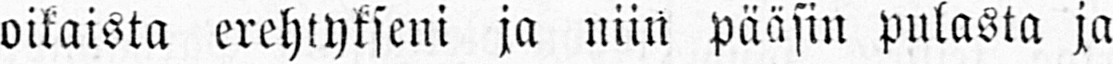oikaista erehtykseni ja niin pääsin pulasta ja
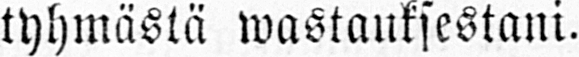tyhmästä wastauksestani.
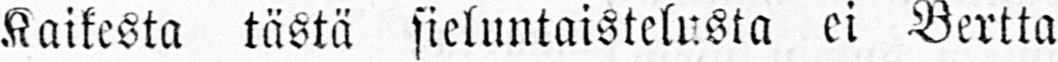Kaikesta tästä sieluntaistelusta ei Bertta
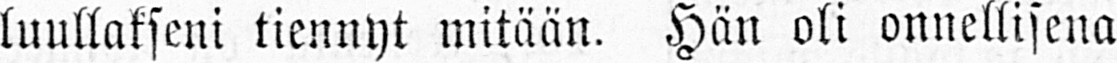luullakseni tiennyt mitään. Hän oli onnellisena
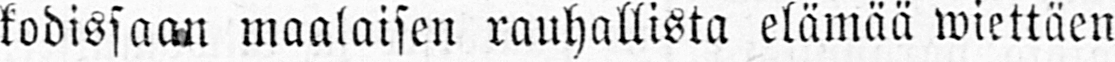kodissaan maalaisen rauhallista elämää wiettäen
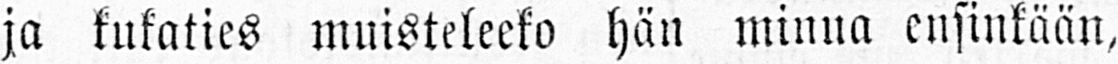ja kukaties muisteleeko hän minua ensinkään,
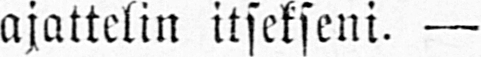ajattelin itsekseni. —
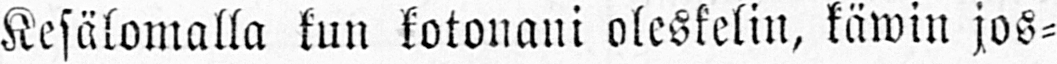Kesälomalla kun kotonani oleskelin, käwin jos-
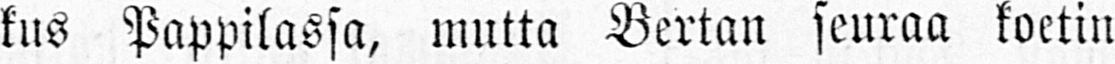kus Pappilassa, mutta Bertan seuraa koetin
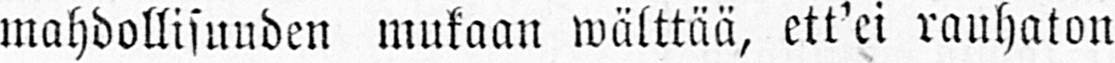mahdollisuuden mukaan wälttää, ett'ei rauhaton
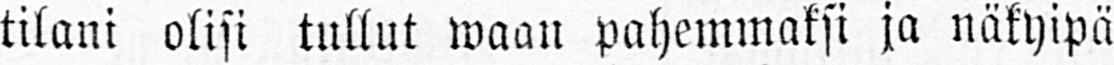tilani olisi tullut waan pahemmaksi ja näkyipä
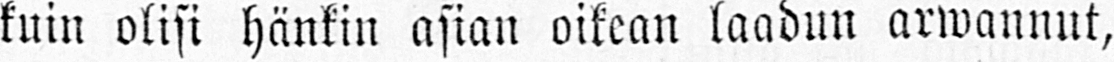kuin olisi hänkin asian oikean laadun arwannut,
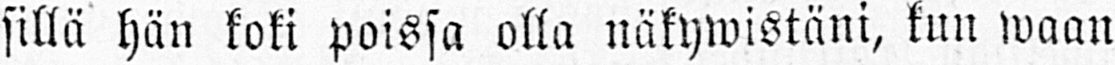sillä hän koki poissa olla näkywistäni, kun waan
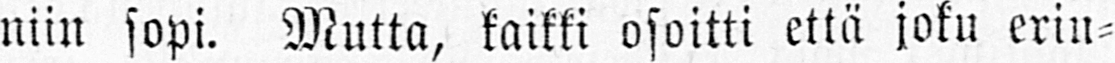niin sopi. Mutta, kaikki osoitti että joku erin-
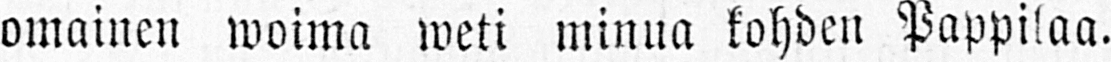omainen woima weti minua kohden Pappilaa.
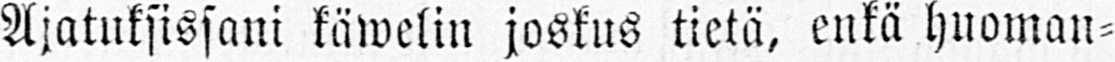Ajatuksissani käwelin joskus tietä, enkä huoman-
